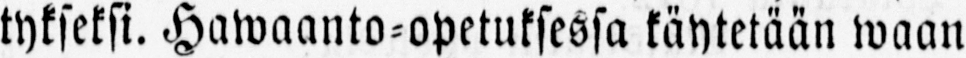tykseksi. Hawaanto-opetuksessa käytetään waan
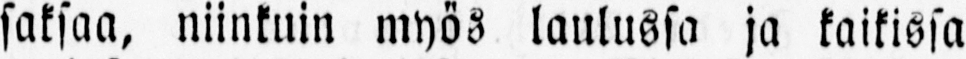saksaa, niinkuin myös laulussa ja kaikissa
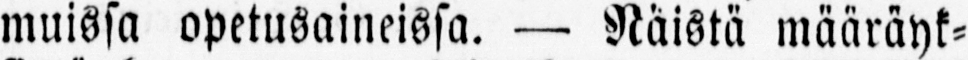muissa opetusaineissa. — Näistä määräyk-
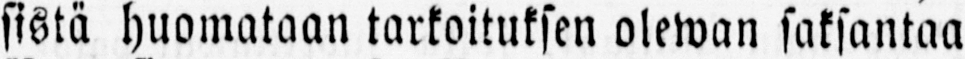sistä huomataan tarkoituksen olewan saksantaa
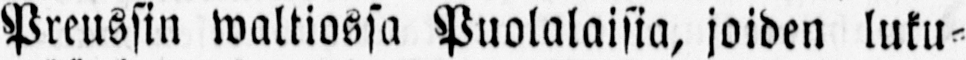Preussin waltiossa Puolalaisia, joiden luku-
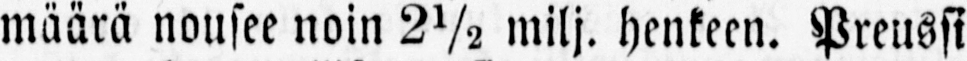määrä nousee noin 2½ milj. henkeen. Preussi
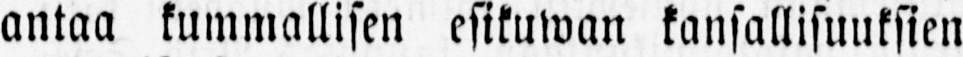antaa kummallisen esikuwan kansallisuuksien
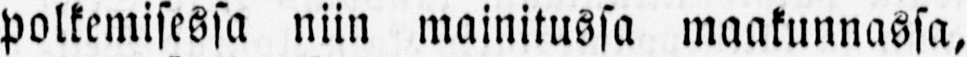polkemisessa niin mainitussa maakunnassa,
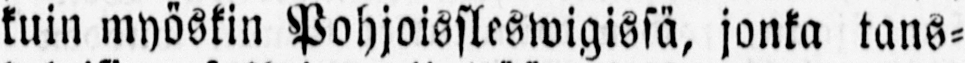kuin myöskin Pohjoissleswigisiä, jonka tans-
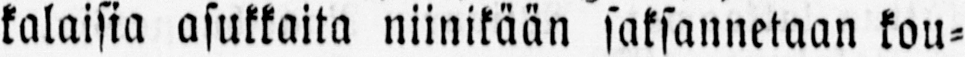kalaisia asukkaita niinikään saksannetaan kou-
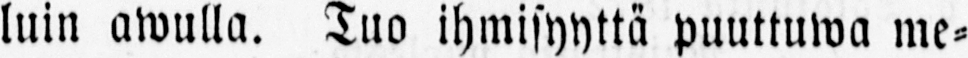luin awulla. Tuo ihmisyyttä puuttuwa me-
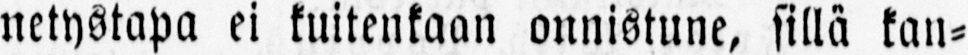netystapa ei kuitenkaan onnistune, sillä kan-
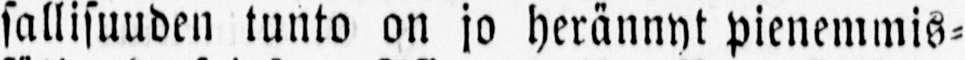sallisuuden tunto on jo herännyt pienemmis-
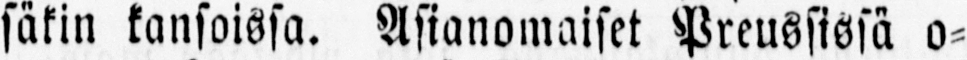säkin kansoissa. Asianomaiset Preussissä o-
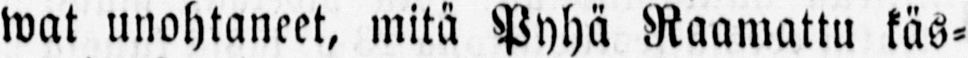wat unohtaneet, mitä Pyhä Raamattu käs-
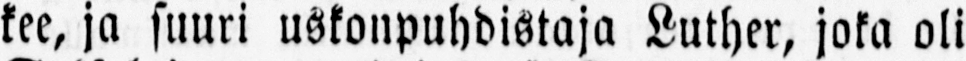kee, ja suuri uskonpuhdistaja Luther, joka oli
